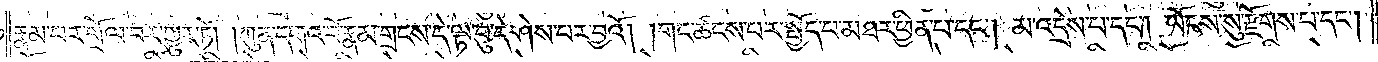རྣམ་པར་གྲོལ་བར་གྱུར་ཏོ། །ཀུན་དགའ་བོ་རྣམ་གྲངས་དེ་ལྟ་བུ་དེ་ཤེས་པར་བྱའོ། །གང་ཚངས་པར་སྤྱོད་པ་མཐར་ཕྱིན་པ་དང༌། མ་འདྲེས་པ་དང༌། ཡོངས་སུ་རྫོགས་པ་དང༌།
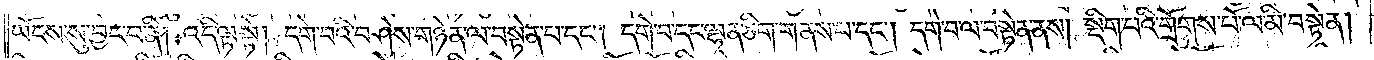ཡོངས་སུ་བྱང་བ་ནི། འདི་ལྟ་སྟེ། དགེ་བའི་བཤེས་གཉེན་ལ་བསྟེན་པ་དང༌། དགེ་བ་དང་ལྷན་ཅིག་གནས་པ་དང༌། དགེ་བ་ལ་བསྟེན་ནས། སྡིག་པའི་གྲོགས་པོ་ལ་མི་བསྟེན།
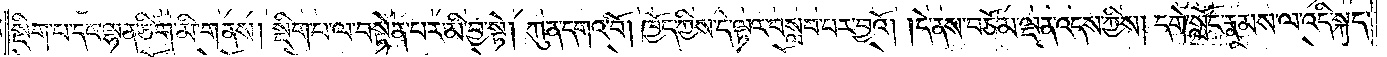སྡིག་པ་དང་ལྷན་ཅིག་མི་གནས། སྡིག་པ་ལ་བསྟེན་པར་མི་བྱ་སྟེ། ཀུན་དགའ་བོ། ཁྱོད་ཀྱིས་དེ་ལྟར་བསླབ་པར་བྱའོ། །དེ་ནས་བཅོམ་ལྡན་འདས་ཀྱིས། དགེ་སློང་རྣམས་ལ་འདི་སྐད་
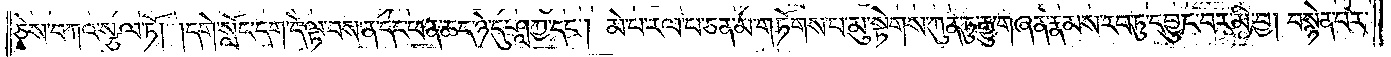ཅེས་བཀའ་སྩལ་ཏོ། །དགེ་སློང་དག་དེ་ལྟ་བས་ན་དང་ཕན་ཆད་ཉེ་དུ་ཤཱཀྱ་དང༌། མེ་པ་རལ་པ་ཅན་མ་གཏོགས་པ་མུ་སྟེགས་ཀུན་ཏུ་རྒྱུ་གཞན་རྣམས་རབ་ཏུ་དབྱུང་བར་མི་བྱ། བསྙེན་པར་
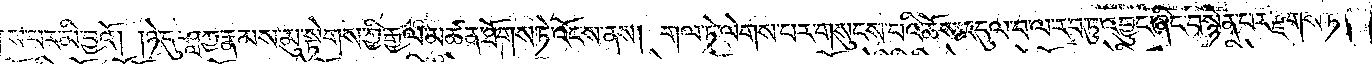རྫོགས་པར་མི་བྱའོ། །ཉེ་དུ་ཤཱཀྱ་རྣམས་མུ་སྟེགས་ཀྱི་རྒྱལ་མཚན་ཐོགས་ཏེ་འོངས་ནས། གལ་ཏེ་ལེགས་པར་གསུངས་པའི་ཆོས་འདུལ་བ་ལ་རབ་ཏུ་འབྱུང་ཞིང་བསྙེན་པར་རྫོགས་ཏེ།
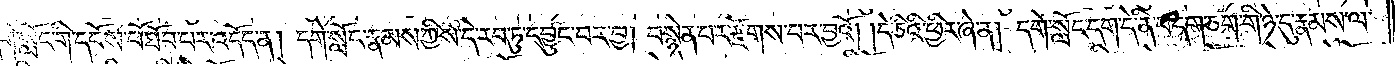དགེ་སློང་གི་དངོས་པོ་ཐོབ་པར་འདོད་ན། དགེ་སློང་རྣམས་ཀྱིས་དེ་རབ་ཏུ་དབྱུང་བར་བྱ། བསྙེན་པར་རྫོགས་པར་བྱའོ། །དེ་ཅིའི་ཕྱིར་ཞེ་ན། དགེ་སློང་དག་དེ་ནི་བདག་ཅག་གི་ཉེ་དུ་རྣམས་ལ་
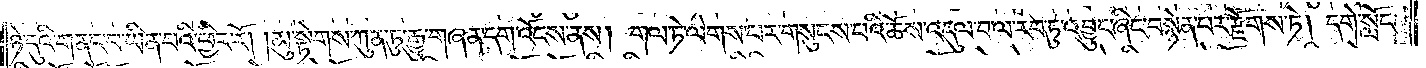ཉེ་དུའི་གནང་བ་ཡིན་པའི་ཕྱིར་རོ། །མུ་སྟེགས་ཀུན་ཏུ་རྒྱུ་གཞན་དག་འོངས་ནས། གལ་ཏེ་ལེགས་པར་གསུངས་པའི་ཆོས་འདུལ་བ་ལ་རབ་ཏུ་འབྱུང་ཞིང་བསྙེན་པར་རྫོགས་ཏེ། དགེ་སློང་
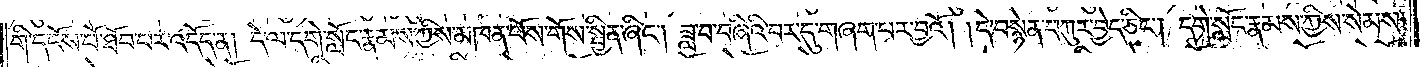གི་དངོས་པོ་ཐོབ་པར་འདོད་ན། དེ་ལ་དགེ་སློང་རྣམས་ཀྱིས་མཁན་པོས་གོས་སྦྱིན་ཞིང༌། ཟླ་བ་བཞིའི་བར་དུ་གཞག་པར་བྱའོ། །དེ་བསྙེན་བཀུར་བྱེད་ཅིང༌། དགེ་སློང་རྣམས་ཀྱིས་སེམས་
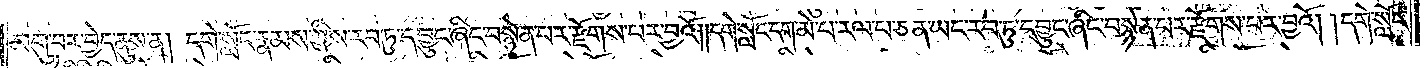མགུ་བར་བྱེད་ནུས་ན། དགེ་སློང་རྣམས་ཀྱིས་རབ་ཏུ་དབྱུང་ཞིང་བསྙེན་པར་རྫོགས་པར་བྱའོ། །དགེ་སློང་དག་མེ་པ་རལ་པ་ཅན་ཡང་རབ་ཏུ་དབྱུང་ཞིང་བསྙེན་པར་རྫོགས་པར་བྱའོ། །དགེ་སློང་
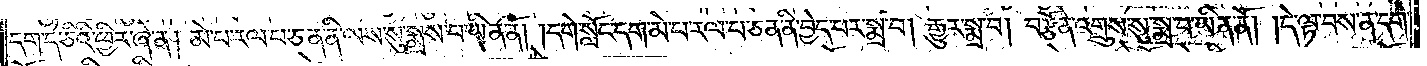དག་དེ་ཅིའི་ཕྱིར་ཞེ་ན། མེ་པ་རལ་པ་ཅན་ནི་ལས་སུ་སྨྲས་པ་ཡིན་ནོ། །དགེ་སློང་དག་མེ་པ་རལ་པ་ཅན་ནི་བྱེད་པར་སྨྲ་བ། རྒྱུར་སྨྲ་བ། བརྩོན་འགྲུས་སུ་སྨྲ་བ་ཡིན་ནོ། །དེ་ལྟ་བས་ན་དགེ་
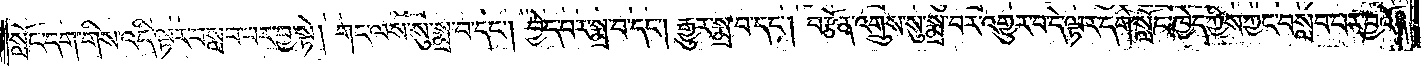སློང་དག་གིས་འདི་ལྟར་བསླབ་པར་བྱ་སྟེ། གང་ལས་སུ་སྨྲ་བ་དང༌། བྱེད་པར་སྨྲ་བ་དང༌། རྒྱུར་སྨྲ་བ་དང༌། བརྩོན་འགྲུས་སུ་སྨྲ་བར་འགྱུར་བ་དེ་ལྟར་དགེ་སློང་ཁྱེད་ཀྱིས་ཀྱང་བསླབ་པར་བྱའོ། །
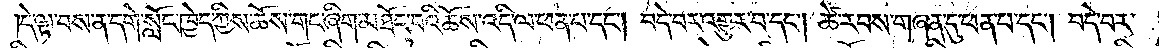དེ་ལྟ་བས་ན་དགེ་སློང་ཁྱེད་ཀྱིས་ཆོས་གང་ཞིག་མཐོང་བའི་ཆོས་འདི་ལ་ཕན་པ་དང༌། བདེ་བར་འགྱུར་བ་དང༌། ཚེ་རབས་གཞན་དུ་ཕན་པ་དང༌། བདེ་བར་
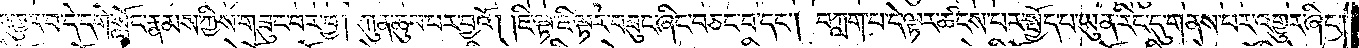འགྱུར་བ་དེ་དགེ་སློང་རྣམས་ཀྱིས་གཟུང་བར་བྱ། ཀུན་ཆུབ་པར་བྱའོ། །ཇི་ལྟ་ཇི་ལྟར་བཟུང་ཞིང་བཅང་བ་དང༌། བཀླག་པ་དེ་ལྟར་ཚངས་པར་སྤྱོད་པ་ཡུན་རིང་དུ་གནས་པར་འགྱུར་ཞིང་
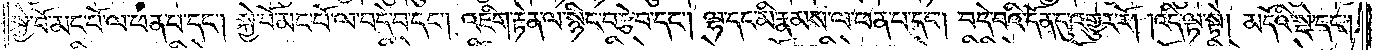སྐྱེ་བོ་མང་པོ་ལ་ཕན་པ་དང༌། སྐྱེ་བོ་མང་པོ་ལ་བདེ་བ་དང༌། འཇིག་རྟེན་ལ་སྙིང་བརྩེ་བ་དང༌། ལྷ་དང་མི་རྣམས་ལ་ཕན་པ་དང༌། བདེ་བའི་དོན་དུ་འགྱུར་རོ། །འདི་ལྟ་སྟེ། མདོའི་སྡེ་དང༌།
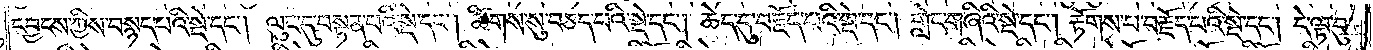དབྱངས་ཀྱིས་བསྙད་པའི་སྡེ་དང༌། ལུང་དུ་བསྟན་པའི་སྡེ་དང༌། ཚིགས་སུ་བཅད་པའི་སྡེ་དང༌། ཆེད་དུ་བརྗོད་པའི་སྡེ་དང༌། གླེང་གཞིའི་སྡེ་དང༌། རྟོགས་པ་བརྗོད་པའི་སྡེ་དང༌། དེ་ལྟ་བུ་
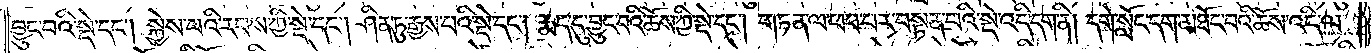བྱུང་བའི་སྡེ་དང༌། སྐྱེས་པའི་རབས་ཀྱི་སྡེ་དང༌། ཤིན་ཏུ་རྒྱས་པའི་སྡེ་དང༌། རྨད་དུ་བྱུང་བའི་ཆོས་ཀྱི་སྡེ་དང༌། གཏན་ལ་ཕབ་པར་བསྟན་པའི་སྡེ་འདི་དག་ནི། དགེ་སློང་དག་མཐོང་བའི་ཆོས་འདི་ལ་
